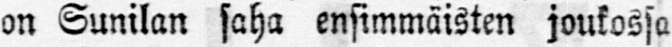on Sunilan saha ensimmäisten joukossa
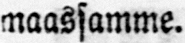maassamme.
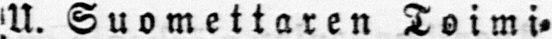U. Suomettaren Toimi-
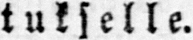tukselle.
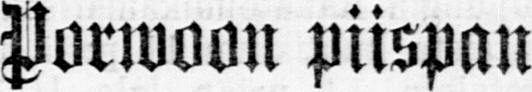Porwoon piispan
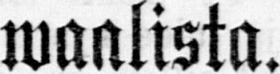waalista.
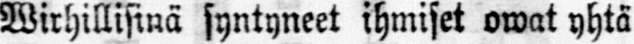Wirhillisinä syntyneet ihmiset owat yhtä
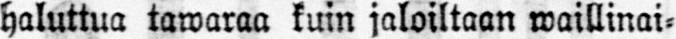haluttua tawaraa kuin jaloiltaan waillinai-
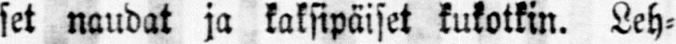set naudat ja kaksipäiset kukotkin. Leh-
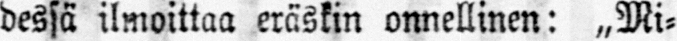dessä ilmoittaa eräskin onnellinen: ˶Mi-
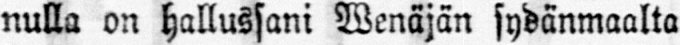nulla on hallussani Wenäjän sydänmaalta
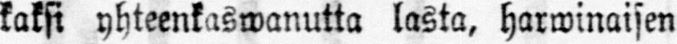kaksi yhteenkaswanutta lasta, harwinaisen
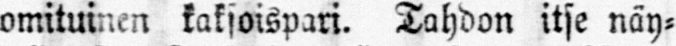omituinen kaksoispari. Tahdon itse näy-
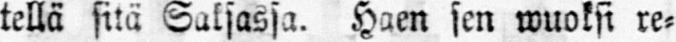tellä sitä Saksassa. Haen sen wuoksi re-
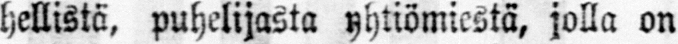hellistä, puhelijasta yhtiömiestä, jolla on
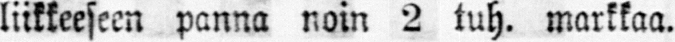liikkeeseen panna noin 2 tuh. markkaa.
